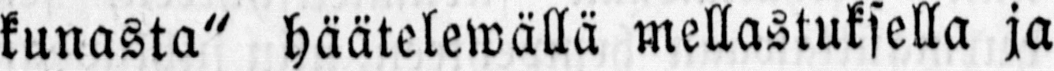kunasta" häätelewällä mellastuksella ja
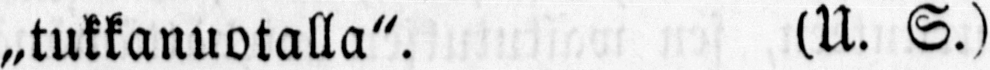„tukkanuotalla". (U. S.)
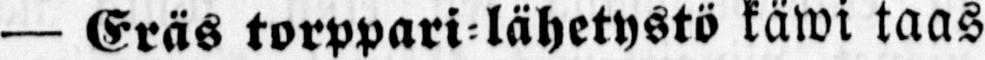— Eräs torppari-lähetystö käwi taas
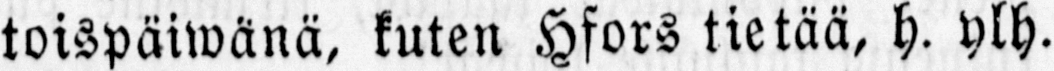toispäiwänä, kuten Hfors tietää, h. ylh.
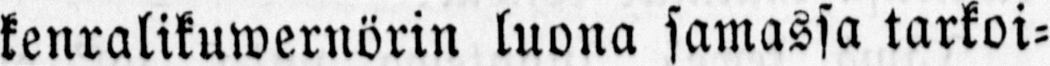kenralikuwernörin luona samassa tarkoi-
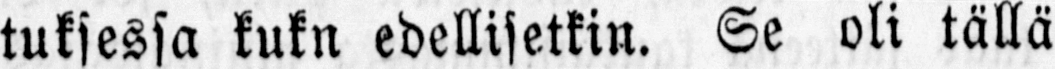tuksessa kuku edellisetkin. Se oli tällä
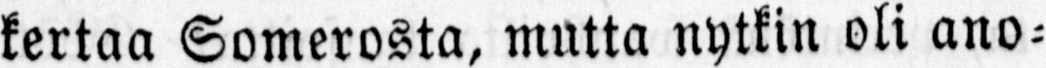kertaa Somerosta, mutta nytkin oli ano-
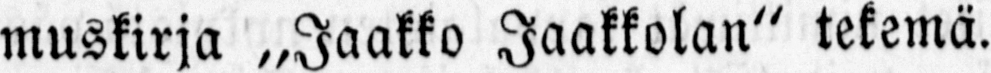muskirja „Jaakko Jaakkolan" tekemä.
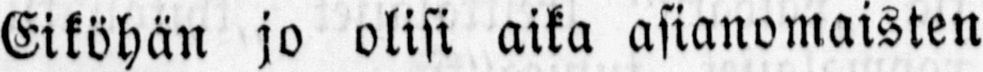Eiköhän jo olisi aika asianomaisten
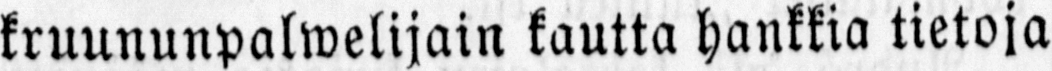kruununpalwelijain kautta hankkia tietoja
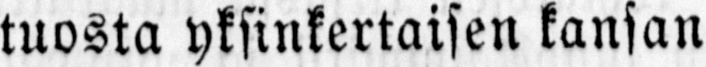tuosta yksinkertaisen kansan
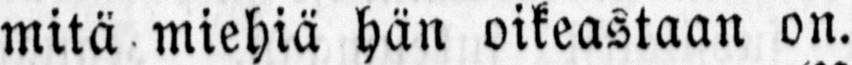witä miehiä hän oikeastaan on.
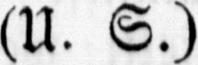(U. S.)
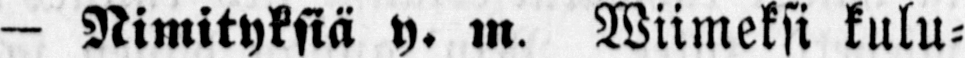— Nimityksiä y. m. Wiimeksi kulu-
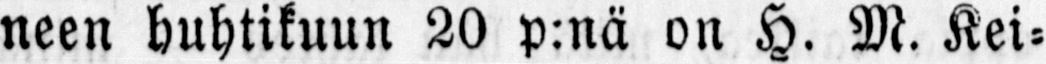neen huhtikuun 20 p:nä on H. M. Kei-
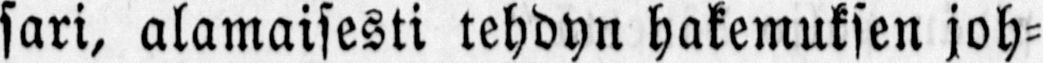sari, alamaisesti tehdyn hakemuksen joh-
